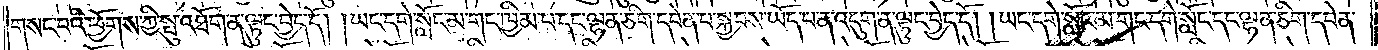གསང་བའི་ཕྱོགས་ཀྱི་སྤུ་འཐོག་ན་ལྟུང་བྱེད་དོ། །ཡང་དགེ་སློང་མ་གང་ཁྱིམ་པ་དང་ལྷན་ཅིག་དབེན་པ་སྐྱབས་ཡོད་པ་ན་འདུག་ན་ལྟུང་བྱེད་དོ། །ཡང་དགེ་སློང་མ་གང་དགེ་སློང་དང་ལྷན་ཅིག་དབེན་
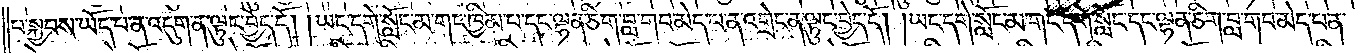པ་སྐྱབས་ཡོད་པ་ན་འདུག་ན་ལྟུང་བྱེད་དོ། །ཡང་དགེ་སློང་མ་གང་ཁྱིམ་པ་དང་ལྷན་ཅིག་བླ་གབ་མེད་པ་ན་འགྲེང་ན་ལྟུང་བྱེད་དོ། །ཡང་དགེ་སློང་མ་གང་དགེ་སློང་དང་ལྷན་ཅིག་བླ་གབ་མེད་པ་ན་
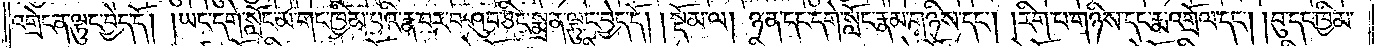འགྲེང་ན་ལྟུང་བྱེད་དོ། །ཡང་དགེ་སློང་མ་གང་ཁྱིམ་པའི་རྣ་བར་བཤུབ་ཅིང་སྨྲ་ན་ལྟུང་བྱེད་དོ།    །སྡོམ་ལ། ཉན་དང་དགེ་སློང་རྣམ་གཉིས་དང༌། །རིག་པ་གཉིས་དང་རྨ་འགྲོལ་དང༌། །བུ་དང་ཁྱིམ་
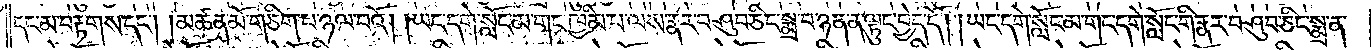དང་མ་བརྟགས་དང༌། །མཚན་མོ་གཅིག་པ་ཉལ་བའོ། །ཡང་དགེ་སློང་མ་གང་ཁྱིམ་པ་ལས་རྣར་བཤུབ་ཅིང་སྨྲ་བ་ཉན་ན་ལྟུང་བྱེད་དོ། །ཡང་དགེ་སློང་མ་གང་དགེ་སློང་གི་རྣར་བཤུབ་ཅིང་སྨྲ་ན་
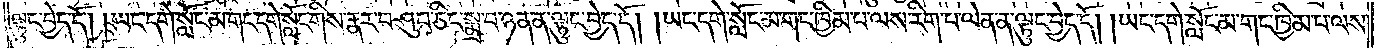ལྟུང་བྱེད་དོ། །ཡང་དགེ་སློང་མ་གང་དགེ་སློང་གིས་རྣར་བཤུབ་ཅིང་སྨྲ་བ་ཉན་ན་ལྟུང་བྱེད་དོ། །ཡང་དགེ་སློང་མ་གང་ཁྱིམ་པ་ལས་རིག་པ་ལེན་ན་ལྟུང་བྱེད་དོ། །ཡང་དགེ་སློང་མ་གང་ཁྱིམ་པ་ལས་
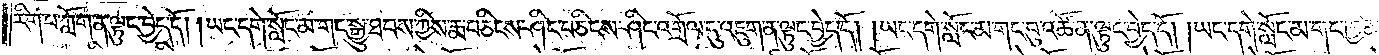རིག་པ་ཀློག་ན་ལྟུང་བྱེད་དོ། །ཡང་དགེ་སློང་མ་གང་སྒྱུ་ཐབས་ཀྱིས་རྨ་བཅིངས་ཤིང་བཅིངས་ཤིང་འགྲོལ་དུ་འཇུག་ན་ལྟུང་བྱེད་དོ། །ཡང་དགེ་སློང་མ་གང་བུ་འཚོ་ན་ལྟུང་བྱེད་དོ། །ཡང་དགེ་སློང་མ་གང་ཁྱིམ་
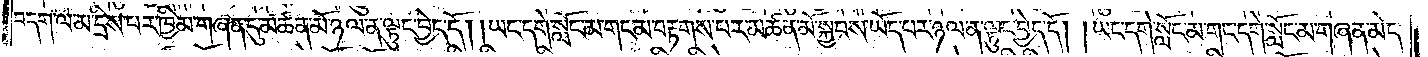བདག་ལ་མ་དྲིས་པར་ཁྱིམ་གཞན་དུ་མཚན་མོ་ཉལ་ན་ལྟུང་བྱེད་དོ། །ཡང་དགེ་སློང་མ་གང་མ་བརྟགས་པར་མཚན་མོ་སྐྱབས་ཡོད་པར་ཉལ་ན་ལྟུང་བྱེད་དོ། །ཡང་དགེ་སློང་མ་གང་དགེ་སློང་མ་གཞན་མེད་
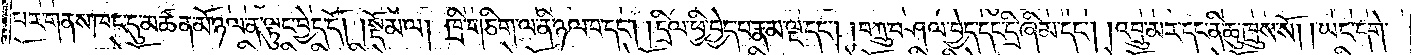པར་གནས་ཁང་དུ་མཚན་མོ་ཉལ་ན་ལྟུང་བྱེད་དོ།    །སྡོམ་ལ། ཁྲི་གཅིག་ལ་ནི་ཉལ་བ་དང༌། །དྲིལ་ཕྱི་བྱེད་པ་རྣམ་ལྔ་དང༌། །བཀྲུ་བཤལ་བྱེད་དང་དྲི་ཞིམ་དང༌། །འབྲུ་མར་དང་ནི་ཆུ་ཁྲུས་སོ། །ཡང་དགེ་
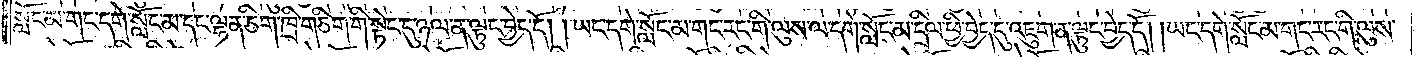སློང་མ་གང་དགེ་སློང་མ་དང་ལྷན་ཅིག་ཁྲི་གཅིག་གི་སྟེང་དུ་ཉལ་ན་ལྟུང་བྱེད་དོ། །ཡང་དགེ་སློང་མ་གང་རང་གི་ལུས་ལ་དགེ་སློང་མ་དྲིལ་ཕྱི་བྱེད་དུ་འཇུག་ན་ལྟུང་བྱེད་དོ། །ཡང་དགེ་སློང་མ་གང་རང་གི་ལུས་
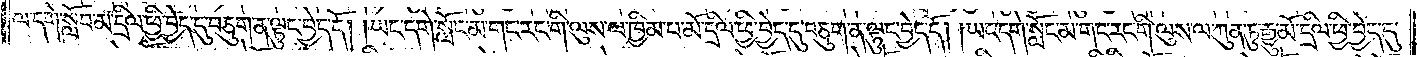ལ་དགེ་སློབ་མ་དྲིལ་ཕྱི་བྱེད་དུ་བཅུག་ན་ལྟུང་བྱེད་དོ། །ཡང་དགེ་སློང་མ་གང་རང་གི་ལུས་ལ་ཁྱིམ་པ་མོ་དྲིལ་ཕྱི་བྱེད་དུ་བཅུག་ན་ལྟུང་བྱེད་དོ། །ཡང་དགེ་སློང་མ་གང་རང་གི་ལུས་ལ་ཀུན་ཏུ་རྒྱུ་མོ་དྲིལ་ཕྱི་བྱེད་དུ་
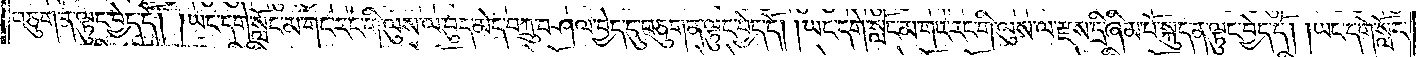བཅུག་ན་ལྟུང་བྱེད་དོ། །ཡང་དགེ་སློང་མ་གང་རང་གི་ལུས་ལ་བུད་མེད་བཀྲུ་བཤལ་བྱེད་དུ་བཅུག་ན་ལྟུང་བྱེད་དོ། །ཡང་དགེ་སློང་མ་གང་རང་གི་ལུས་ལ་རྫས་དྲི་ཞིམ་པོ་སྐུད་ན་ལྟུང་བྱེད་དོ། །ཡང་དགེ་སློང་
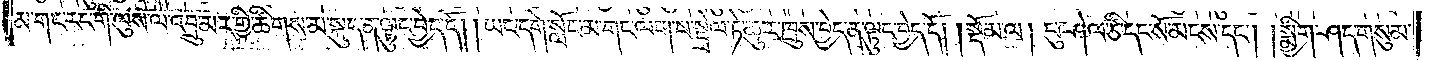མ་གང་རང་གི་ལུས་ལ་འབྲུ་མར་གྱི་ཚིགས་མ་སྐུད་ན་ལྟུང་བྱེད་དོ། །ཡང་དགེ་སློང་མ་གང་ལག་པ་སྦྲེལ་ཏེ་ཆུར་ཁྲུས་བྱེད་ན་ལྟུང་བྱེད་དོ།    །སྡོམ་ལ། པུ་ཤེལ་ཙི་དང་སོ་མངས་དང༌། །སྨྱིག་ཤད་གསུམ་
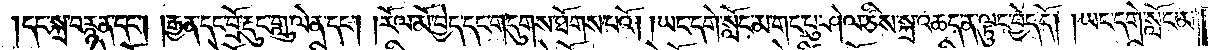དང་སྐྲ་བརྙན་དང༌། །རྒྱན་དང་བྲོ་རྡུང་གླུ་ལེན་དང༌། །རོལ་མོ་བྱེད་དང་གདུགས་ཐོགས་པའོ། །ཡང་དགེ་སློང་མ་གང་པུ་ཤེལ་ཙིས་སྐྲ་འཆད་ན་ལྟུང་བྱེད་དོ། །ཡང་དགེ་སློང་མ་
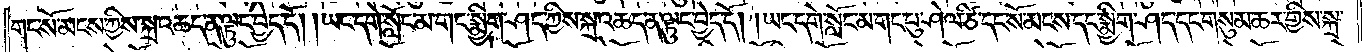གང་སོ་མངས་ཀྱིས་སྐྲ་འཆད་ན་ལྟུང་བྱེད་དོ། །ཡང་དགེ་སློང་མ་གང་སྨྱིག་ཤད་ཀྱིས་སྐྲ་འཆད་ན་ལྟུང་བྱེད་དོ། །ཡང་དགེ་སློང་མ་གང་པུ་ཤེལ་ཙི་དང་སོ་མངས་དང་སྨྱིག་ཤད་དང་གསུམ་ཆར་གྱིས་སྐྲ་
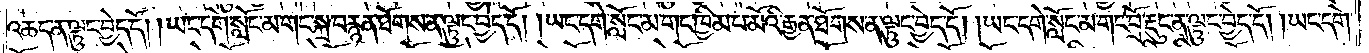འཆད་ན་ལྟུང་བྱེད་དོ། །ཡང་དགེ་སློང་མ་གང་སྐྲ་བརྙན་ཐོགས་ན་ལྟུང་བྱེད་དོ། །ཡང་དགེ་སློང་མ་གང་ཁྱིམ་པ་མོའི་རྒྱན་ཐོགས་ན་ལྟུང་བྱེད་དོ། །ཡང་དགེ་སློང་མ་གང་བྲོ་རྡུང་ན་ལྟུང་བྱེད་དོ། །ཡང་དགེ་
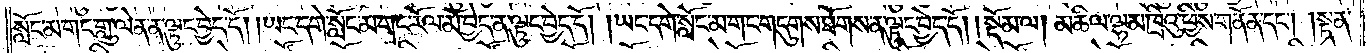སློང་མ་གང་གླུ་ལེན་ན་ལྟུང་བྱེད་དོ། །ཡང་དགེ་སློང་མ་གང་རོལ་མོ་བྱེད་ན་ལྟུང་བྱེད་དོ། །ཡང་དགེ་སློང་མ་གང་གདུགས་ཐོགས་ན་ལྟུང་བྱེད་དོ།    །སྡོམ་ལ། མཆིལ་ལྷམ་ཁྲིའུ་ཕྱིས་གནོན་དང༌། །སྟན་
